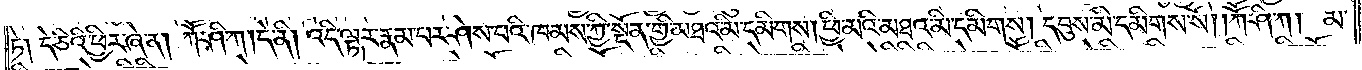ཏེ། དེ་ཅིའི་ཕྱིར་ཞེ་ན། ཀཽ་ཤི་ཀ །དེ་ནི། འདི་ལྟར་རྣམ་པར་ཤེས་པའི་ཁམས་ཀྱི་སྔོན་གྱི་མཐའ་མི་དམིགས། ཕྱི་མའི་མཐའ་མི་དམིགས། དབུས་མི་དམིགས་སོ། །ཀཽ་ཤི་ཀ། མ་
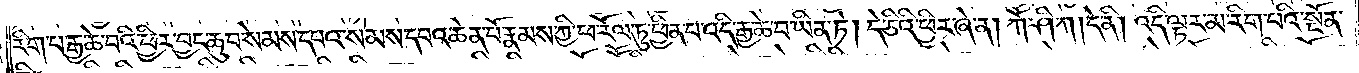རིག་པ་རྒྱ་ཆེ་བའི་ཕྱིར་བྱང་ཆུབ་སེམས་དཔའ་སེམས་དཔའ་ཆེན་པོ་རྣམས་ཀྱི་ཕ་རོལ་ཏུ་ཕྱིན་པ་འདི་རྒྱ་ཆེ་བ་ཡིན་ཏེ། དེ་ཅིའི་ཕྱིར་ཞེ་ན། ཀཽ་ཤི་ཀ །དེ་ནི། འདི་ལྟར་མ་རིག་པའི་སྔོན་
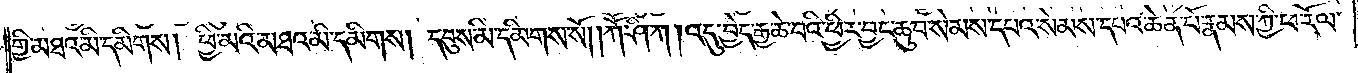གྱི་མཐའ་མི་དམིགས། ཕྱི་མའི་མཐའ་མི་དམིགས། དབུས་མི་དམིགས་སོ། །ཀཽ་ཤི་ཀ །འདུ་བྱེད་རྒྱ་ཆེ་བའི་ཕྱིར་བྱང་ཆུབ་སེམས་དཔའ་སེམས་དཔའ་ཆེན་པོ་རྣམས་ཀྱི་ཕ་རོལ་
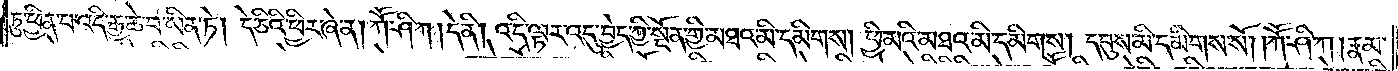ཏུ་ཕྱིན་པ་འདི་རྒྱ་ཆེ་བ་ཡིན་ཏེ། དེ་ཅིའི་ཕྱིར་ཞེ་ན། ཀཽ་ཤི་ཀ །དེ་ནི། འདི་ལྟར་འདུ་བྱེད་ཀྱི་སྔོན་གྱི་མཐའ་མི་དམིགས། ཕྱི་མའི་མཐའ་མི་དམིགས། དབུས་མི་དམིགས་སོ། །ཀཽ་ཤི་ཀ། རྣམ་
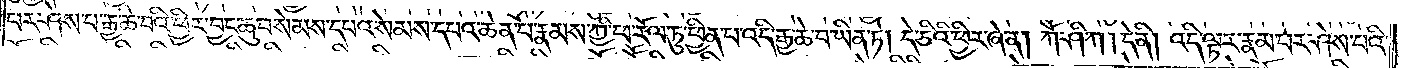པར་ཤེས་པ་རྒྱ་ཆེ་བའི་ཕྱིར་བྱང་ཆུབ་སེམས་དཔའ་སེམས་དཔའ་ཆེན་པོ་རྣམས་ཀྱི་ཕ་རོལ་ཏུ་ཕྱིན་པ་འདི་རྒྱ་ཆེ་བ་ཡིན་ཏེ། དེ་ཅིའི་ཕྱིར་ཞེ་ན། ཀཽ་ཤི་ཀ། དེ་ནི། འདི་ལྟར་རྣམ་པར་ཤེས་པའི་
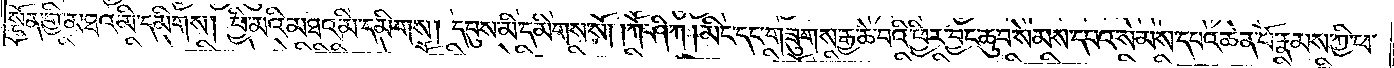སྔོན་གྱི་མཐའ་མི་དམིགས། ཕྱི་མའི་མཐའ་མི་དམིགས། དབུས་མི་དམིགས་སོ། །ཀཽ་ཤི་ཀ །མིང་དང་གཟུགས་རྒྱ་ཆེ་བའི་ཕྱིར་བྱང་ཆུབ་སེམས་དཔའ་སེམས་དཔའ་ཆེན་པོ་རྣམས་ཀྱི་ཕ་
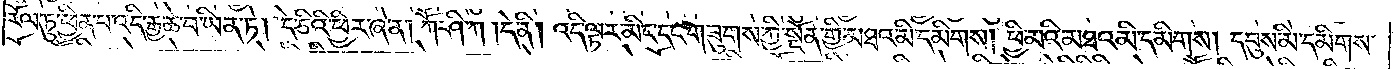རོལ་ཏུ་ཕྱིན་པ་འདི་རྒྱ་ཆེ་བ་ཡིན་ཏེ། དེ་ཅིའི་ཕྱིར་ཞེ་ན། ཀཽ་ཤི་ཀ །དེ་ནི། འདི་ལྟར་མིང་དང་གཟུགས་ཀྱི་སྔོན་གྱི་མཐའ་མི་དམིགས། ཕྱི་མའི་མཐའ་མི་དམིགས། དབུས་མི་དམིགས་
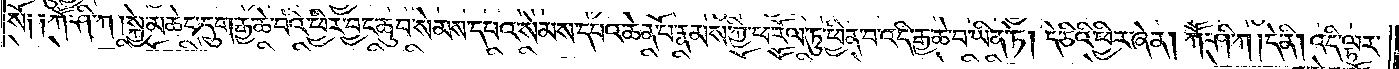སོ༑ ༑ཀཽ་ཤི་ཀ །སྐྱེ་མཆེད་དྲུག་རྒྱ་ཆེ་བའི་ཕྱིར། བྱང་ཆུབ་སེམས་དཔའ་སེམས་དཔའ་ཆེན་པོ་རྣམས་ཀྱི་ཕ་རོལ་ཏུ་ཕྱིན་པ་འདི་རྒྱ་ཆེ་བ་ཡིན་ཏེ། དེ་ཅིའི་ཕྱིར་ཞེ་ན། ཀཽ་ཤི་ཀ །དེ་ནི། འདི་ལྟར་
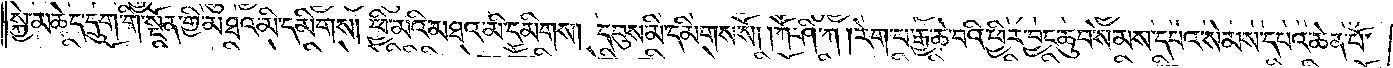སྐྱེ་མཆེད་དྲུག་གི་སྔོན་གྱི་མཐའ་མི་དམིགས། ཕྱི་མའི་མཐའ་མི་དམིགས། དབུས་མི་དམིགས་སོ། །ཀཽ་ཤི་ཀ །རེག་པ་རྒྱ་ཆེ་བའི་ཕྱིར་བྱང་ཆུབ་སེམས་དཔའ་སེམས་དཔའ་ཆེན་པོ་
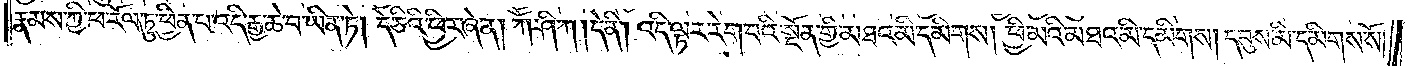རྣམས་ཀྱི་ཕ་རོལ་ཏུ་ཕྱིན་པ་འདི་རྒྱ་ཆེ་བ་ཡིན་ཏེ། དེ་ཅིའི་ཕྱིར་ཞེ་ན། ཀཽ་ཤི་ཀ །དེ་ནི། འདི་ལྟར་རེག་པའི་སྔོན་གྱི་མཐའ་མི་དམིགས། ཕྱི་མའི་མཐའ་མི་དམིགས། དབུས་མི་དམིགས་སོ། །
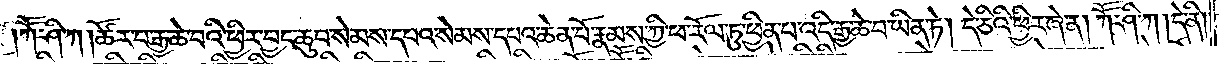ཀཽ་ཤི་ཀ །ཚོར་བ་རྒྱ་ཆེ་བའི་ཕྱིར་བྱང་ཆུབ་སེམས་དཔའ་སེམས་དཔའ་ཆེན་པོ་རྣམས་ཀྱི་ཕ་རོལ་ཏུ་ཕྱིན་པ་འདི་རྒྱ་ཆེ་བ་ཡིན་ཏེ། དེ་ཅིའི་ཕྱིར་ཞེ་ན། ཀཽ་ཤི་ཀ །དེ་ནི།
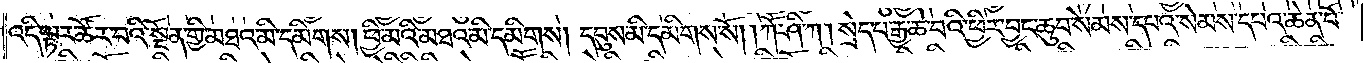འདི་ལྟར་ཚོར་བའི་སྔོན་གྱི་མཐའ་མི་དམིགས། ཕྱི་མའི་མཐའ་མི་དམིགས། དབུས་མི་དམིགས་སོ། །ཀཽ་ཤི་ཀ། སྲེད་པ་རྒྱ་ཆེ་བའི་ཕྱིར་བྱང་ཆུབ་སེམས་དཔའ་སེམས་དཔའ་ཆེན་པོ་
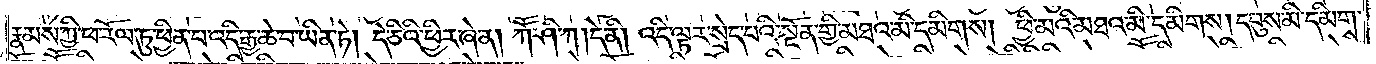རྣམས་ཀྱི་ཕ་རོལ་ཏུ་ཕྱིན་པ་འདི་རྒྱ་ཆེ་བ་ཡིན་ཏེ། དེ་ཅིའི་ཕྱིར་ཞེ་ན། ཀཽ་ཤི་ཀ །དེ་ནི། འདི་ལྟར་སྲེད་པའི་སྔོན་གྱི་མཐའ་མི་དམིགས། ཕྱི་མའི་མཐའ་མི་དམིགས། དབུས་མི་དམིགས་
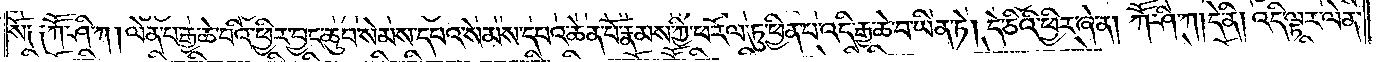སོ། །ཀཽ་ཤི་ཀ། ལེན་པ་རྒྱ་ཆེ་བའི་ཕྱིར་བྱང་ཆུབ་སེམས་དཔའ་སེམས་དཔའ་ཆེན་པོ་རྣམས་ཀྱི་ཕ་རོལ་ཏུ་ཕྱིན་པ་འདི་རྒྱ་ཆེ་བ་ཡིན་ཏེ། དེ་ཅིའི་ཕྱིར་ཞེ་ན། ཀཽ་ཤི་ཀ །དེ་ནི། འདི་ལྟར་ལེན་
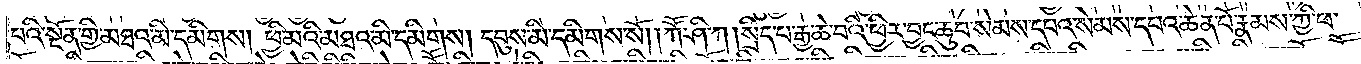པའི་སྔོན་གྱི་མཐའ་མི་དམིགས། ཕྱི་མའི་མཐའ་མི་དམིགས། དབུས་མི་དམིགས་སོ། །ཀཽ་ཤི་ཀ །སྲིད་པ་རྒྱ་ཆེ་བའི་ཕྱིར་བྱང་ཆུབ་སེམས་དཔའ་སེམས་དཔའ་ཆེན་པོ་རྣམས་ཀྱི་ཕ་
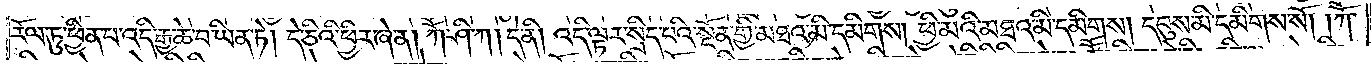རོལ་ཏུ་ཕྱིན་པ་འདི་རྒྱ་ཆེ་བ་ཡིན་ཏེ། དེ་ཅིའི་ཕྱིར་ཞེ་ན། ཀཽ་ཤི་ཀ །དེ་ནི། འདི་ལྟར་སྲིད་པའི་སྔོན་གྱི་མཐའ་མི་དམིགས། ཕྱི་མའི་མཐའ་མི་དམིགས། དབུས་མི་དམིགས་སོ། །ཀཽ་
